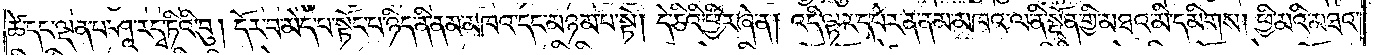ཚེ་དང་ལྡན་པ་ཤཱ་ར་དྭ་ཏིའི་བུ། དོར་བ་མེད་པ་སྟོང་པ་ཉིད་ནི་ནམ་མཁའ་དང་མཉམ་པ་སྟེ། དེ་ཅིའི་ཕྱིར་ཞེ་ན། འདི་ལྟར་དཔེར་ན་ནམ་མཁའ་ལ་ནི་སྔོན་གྱི་མཐའ་མི་དམིགས། ཕྱི་མའི་མཐའ་
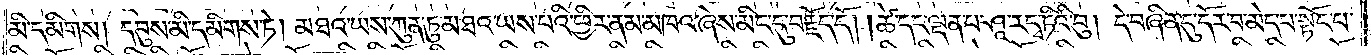མི་དམིགས། དབུས་མི་དམིགས་ཏེ། མཐའ་ཡས་ཀུན་ཏུ་མཐའ་ཡས་པའི་ཕྱིར་ནམ་མཁའ་ཞེས་མིང་དུ་བརྗོད་དོ། །ཚེ་དང་ལྡན་པ་ཤཱ་ར་དྭ་ཏིའི་བུ། དེ་བཞིན་དུ་དོར་བ་མེད་པ་སྟོང་པ་
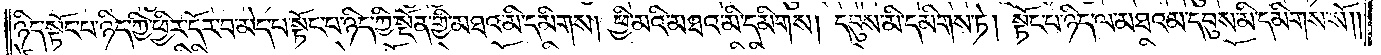ཉིད་སྟོང་པ་ཉིད་ཀྱི་ཕྱིར་དོར་བ་མེད་པ་སྟོང་པ་ཉིད་ཀྱི་སྔོན་གྱི་མཐའ་མི་དམིགས། ཕྱི་མའི་མཐའ་མི་དམིགས། དབུས་མི་དམིགས་ཏེ། སྟོང་པ་ཉིད་ལ་མཐའམ་དབུས་མི་དམིགས་སོ། །
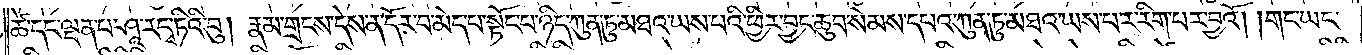ཚེ་དང་ལྡན་པ་ཤཱ་ར་དྭ་ཏིའི་བུ། རྣམ་གྲངས་དེས་ན་དོར་བ་མེད་པ་སྟོང་པ་ཉིད་ཀུན་ཏུ་མཐའ་ཡས་པའི་ཕྱིར་བྱང་ཆུབ་སེམས་དཔའ་ཀུན་ཏུ་མཐའ་ཡས་པར་རིག་པར་བྱའོ། །གང་ཡང་
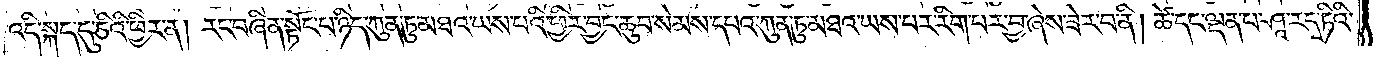འདི་སྐད་དུ་ཅིའི་ཕྱིར་ན། རང་བཞིན་སྟོང་པ་ཉིད་ཀུན་ཏུ་མཐའ་ཡས་པའི་ཕྱིར་བྱང་ཆུབ་སེམས་དཔའ་ཀུན་ཏུ་མཐའ་ཡས་པར་རིག་པར་བྱ་ཞེས་ཟེར་བ་ནི། ཚེ་དང་ལྡན་པ་ཤཱ་ར་དྭ་ཏིའི་
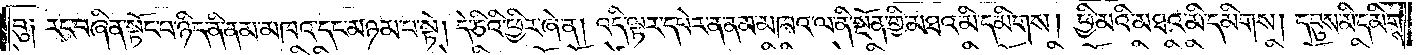བུ། རང་བཞིན་སྟོང་པ་ཉིད་ནི་ནམ་མཁའ་དང་མཉམ་པ་སྟེ། དེ་ཅིའི་ཕྱིར་ཞེ་ན། འདི་ལྟར་དཔེར་ན་ནམ་མཁའ་ལ་ནི་སྔོན་གྱི་མཐའ་མི་དམིགས། ཕྱི་མའི་མཐའ་མི་དམིགས། དབུས་མི་དམིགས་
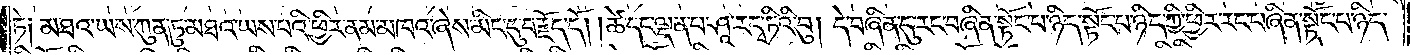ཏེ། མཐའ་ཡས་ཀུན་ཏུ་མཐའ་ཡས་པའི་ཕྱིར་ནམ་མཁའ་ཞེས་མིང་དུ་བརྗོད་དོ། །ཚེ་དང་ལྡན་པ་ཤཱ་ར་དྭ་ཏིའི་བུ། དེ་བཞིན་དུ་རང་བཞིན་སྟོང་པ་ཉིད་ཀྱི་ཕྱིར་རང་བཞིན་སྟོང་པ་ཉིད་
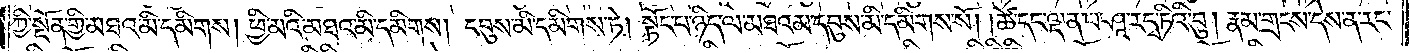ཀྱི་སྔོན་གྱི་མཐའ་མི་དམིགས། ཕྱི་མའི་མཐའ་མི་དམིགས། དབུས་མི་དམིགས་ཏེ། སྟོང་པ་ཉིད་ལ་མཐའམ་དབུས་མི་དམིགས་སོ། །ཚེ་དང་ལྡན་པ་ཤཱ་ར་དྭ་ཏིའི་བུ། རྣམ་གྲངས་དེས་ན་རང་
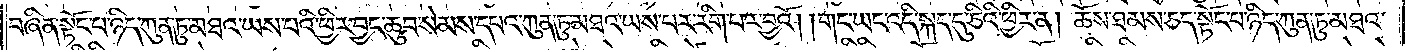བཞིན་སྟོང་པ་ཉིད་ཀུན་ཏུ་མཐའ་ཡས་པའི་ཕྱིར་བྱང་ཆུབ་སེམས་དཔའ་ཀུན་ཏུ་མཐའ་ཡས་པར་རིག་པར་བྱའོ། །གང་ཡང་འདི་སྐད་དུ་ཅིའི་ཕྱིར་ན། ཆོས་ཐམས་ཅད་སྟོང་པ་ཉིད་ཀུན་ཏུ་མཐའ་
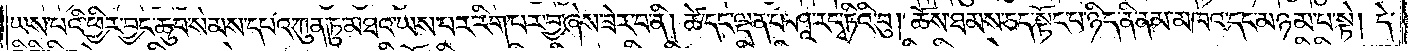ཡས་པའི་ཕྱིར་བྱང་ཆུབ་སེམས་དཔའ་ཀུན་ཏུ་མཐའ་ཡས་པར་རིག་པར་བྱ་ཞེས་ཟེར་བ་ནི། ཚེ་དང་ལྡན་པ་ཤཱ་ར་དྭ་ཏིའི་བུ། ཆོས་ཐམས་ཅད་སྟོང་པ་ཉིད་ནི་ནམ་མཁའ་དང་མཉམ་པ་སྟེ། དེ་
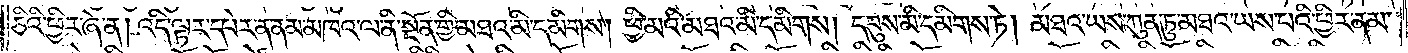ཅིའི་ཕྱིར་ཞེ་ན། འདི་ལྟར་དཔེར་ན་ནམ་མཁའ་ལ་ནི་སྔོན་གྱི་མཐའ་མི་དམིགས། ཕྱི་མའི་མཐའ་མི་དམིགས། དབུས་མི་དམིགས་ཏེ། མཐའ་ཡས་ཀུན་ཏུ་མཐའ་ཡས་པའི་ཕྱིར་ནམ་
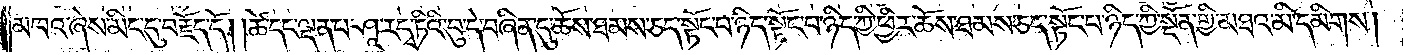མཁའ་ཞེས་མིང་དུ་བརྗོད་དོ། །ཚེ་དང་ལྡན་པ་ཤཱ་ར་དྭ་ཏིའི་བུ་དེ་བཞིན་དུ་ཆོས་ཐམས་ཅད་སྟོང་པ་ཉིད་ཀྱི་ཕྱིར་ཆོས་ཐམས་ཅད་སྟོང་པ་ཉིད་ཀྱི་སྔོན་གྱི་མཐའ་མི་དམིགས།
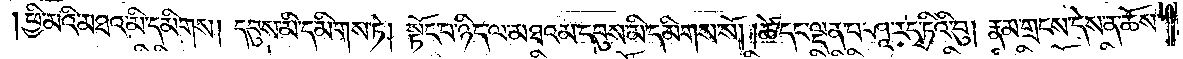ཕྱི་མའི་མཐའ་མི་དམིགས། དབུས་མི་དམིགས་ཏེ། སྟོང་པ་ཉིད་ལ་མཐའམ་དབུས་མི་དམིགས་སོ། །ཚེ་དང་ལྡན་པ་ཤཱ་ར་དྭ་ཏིའི་བུ། རྣམ་གྲངས་དེས་ན་ཆོས་
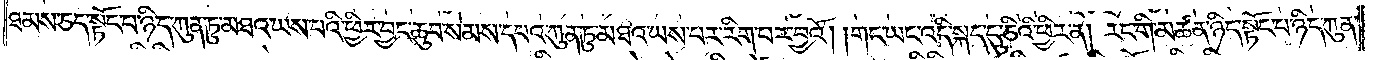ཐམས་ཅད་སྟོང་པ་ཉིད་ཀུན་ཏུ་མཐའ་ཡས་པའི་ཕྱིར་བྱང་ཆུབ་སེམས་དཔའ་ཀུན་ཏུ་མཐའ་ཡས་པར་རིག་པར་བྱའོ། །གང་ཡང་འདི་སྐད་དུ་ཅིའི་ཕྱིར་ན། རང་གི་མཚན་ཉིད་སྟོང་པ་ཉིད་ཀུན་
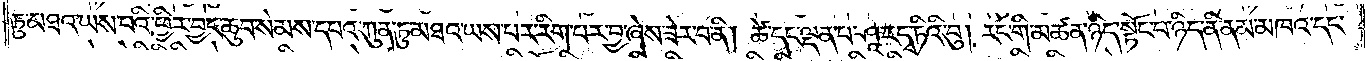ཏུ་མཐའ་ཡས་པའི་ཕྱིར་བྱང་ཆུབ་སེམས་དཔའ་ཀུན་ཏུ་མཐའ་ཡས་པར་རིག་པར་བྱ་ཞེས་ཟེར་བ་ནི། ཚེ་དང་ལྡན་པ་ཤཱ་ར་དྭ་ཏིའི་བུ། རང་གི་མཚན་ཉིད་སྟོང་པ་ཉིད་ནི་ནམ་མཁའ་དང་
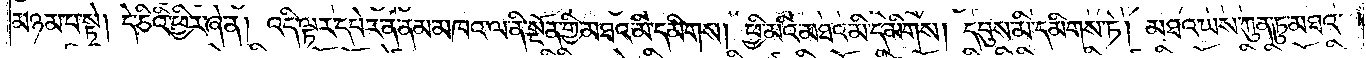མཉམ་པ་སྟེ། དེ་ཅིའི་ཕྱིར་ཞེ་ན། འདི་ལྟར་དཔེར་ན་ནམ་མཁའ་ལ་ནི་སྔོན་གྱི་མཐའ་མི་དམིགས། ཕྱི་མའི་མཐའ་མི་དམིགས། དབུས་མི་དམིགས་ཏེ། མཐའ་ཡས་ཀུན་ཏུ་མཐའ་
